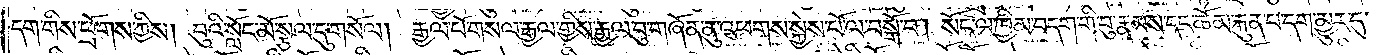དག་གིས་ཕྲོགས་ཀྱིས། བུའི་སློང་མོ་སྩལ་དུ་གསོལ། རྒྱལ་པོ་གསལ་རྒྱལ་གྱིས་རྒྱལ་བུ་གཞོན་ནུ་འཕགས་སྐྱེས་པོ་ལ་བསྒོ་བ། སོང་ལ་ཁྱིམ་བདག་གི་བུ་རྣམས་དང་ཆོམ་རྐུན་པ་དག་མྱུར་དུ་
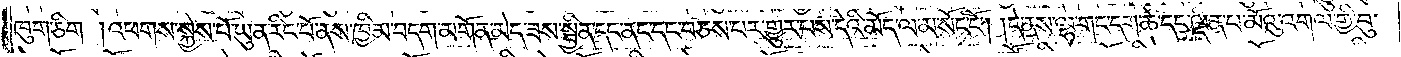ཁུག་ཅིག །འཕགས་སྐྱེས་པོ་ཡུན་རིང་པོ་ནས་ཁྱིམ་བདག་མགོན་མེད་ཟས་སྦྱིན་དང་ནང་དང་བཅས་པར་གྱུར་པས་དེའི་མོད་ལ་མ་སོང་ངོ༌། །དེ་ནས་ལྷ་གང་དག་ཚེ་དང་ལྡན་པ་མོའུ་འགལ་གྱི་བུ་
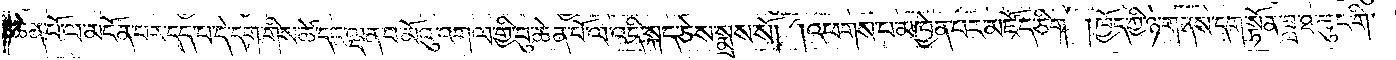ཆེན་པོ་ལ་མངོན་པར་དད་པ་དེ་དག་གིས་ཚེ་དང་ལྡན་པ་མོའུ་འགལ་གྱི་བུ་ཆེན་པོ་ལ་འདི་སྐད་ཅེས་སྨྲས་སོ། །འཕགས་པ་མཁྱེན་པར་མཛོད་ཅིག །ཁྱོད་ཀྱི་ཉེ་གནས་དག་སྟོན་ཟླ་ཐ་ཆུང་གི་
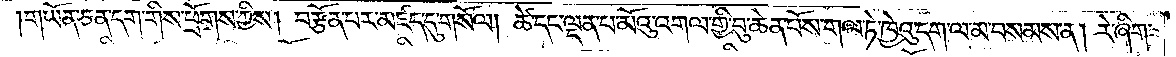གཡོན་ཅན་དག་གིས་ཕྲོགས་ཀྱིས། བརྩོན་པར་མཛད་དུ་གསོལ། ཚེ་དང་ལྡན་པ་མོའུ་འགལ་གྱི་བུ་ཆེན་པོས་གལ་ཏེ་ཁྱེའུ་དག་ལ་མ་བསམས་ན། རེ་ཞིག་
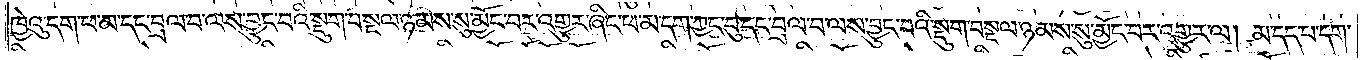ཁྱེའུ་དག་ཕ་མ་དང་བྲལ་བ་ལས་བྱུང་བའི་སྡུག་བསྔལ་ཉམས་སུ་མྱོང་བར་འགྱུར་ཞིང་ཕ་མ་དག་ཀྱང་བུ་དང་བྲལ་བ་ལས་བྱུང་བའི་སྡུག་བསྔལ་ཉམས་སུ་མྱོང་བར་འགྱུར་ལ། མ་དད་པ་དག་
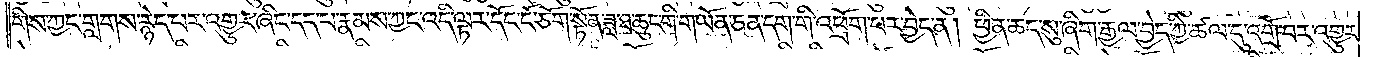གིས་ཀྱང་གླགས་རྙེད་པར་འགྱུར་ཞིང་དད་པ་རྣམས་ཀྱང་འདི་ལྟར་དོང་ངོ་ཅོག་སྟོན་ཟླ་ཐ་ཆུང་གི་གཡོན་ཅན་དག་གི་འཕྲོག་པར་བྱེད་ན། ཕྱིན་ཆད་སུ་ཞིག་རྒྱལ་བྱེད་ཀྱི་ཚལ་དུ་འགྲོ་བར་འགྱུར་
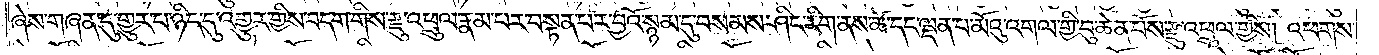ཞེས་གཞན་དུ་གྱུར་པ་ཉིད་དུ་འགྱུར་གྱིས་བདག་གིས་རྫུ་འཕྲུལ་རྣམ་པར་བསྟན་པར་བྱའོ་སྙམ་དུ་བསམས་ཤིང་རིག་ནས་ཚེ་དང་ལྡན་པ་མོའུ་འགལ་གྱི་བུ་ཆེན་པོས་རྫུ་འཕྲུལ་གྱིས། འཕགས་
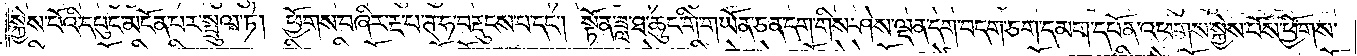སྐྱེས་པོའི་དཔུང་མངོན་པར་སྤྲུལ་ཏེ། ཕྱོགས་བཞིར་རྔ་པ་ཊ་ཧ་བརྡུངས་པ་དང༌། སྟོན་ཟླ་ཐ་ཆུང་གི་གཡོན་ཅན་དག་གིས་ཤེས་ལྡན་དག་བདག་ཅག་དམག་དཔོན་འཕགས་སྐྱེས་པོས་ཕྱོགས་
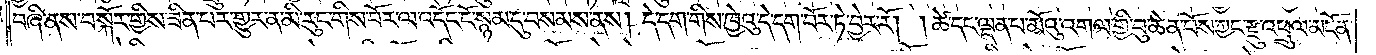བཞི་ནས་བསྐོར་གྱིས་ཟིན་པར་གྱུར་ན་མི་རུང་གིས་བོར་ལ་འདོང་ངོ་སྙམ་དུ་བསམས་ནས། དེ་དག་གིས་ཁྱེའུ་དེ་དག་བོར་ཏེ་བྱེར་རོ། །ཚེ་དང་ལྡན་པ་མོའུ་འགལ་གྱི་བུ་ཆེན་པོས་ཀྱང་རྫུ་འཕྲུལ་མངོན་
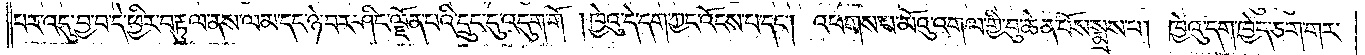པར་འདུ་བྱ་བ་དེ་ཕྱིར་བརྟུལ་ནས་ལམ་དང་ཉེ་བར་ཤིང་ལྗོན་པའི་དྲུང་དུ་འདུག་གོ །ཁྱེའུ་དེ་དག་ཀྱང་འོངས་པ་དང༌། འཕགས་པ་མོའུ་འགལ་གྱི་བུ་ཆེན་པོས་སྨྲས་པ། ཁྱེའུ་དག་ཁྱེད་ཅག་གར་
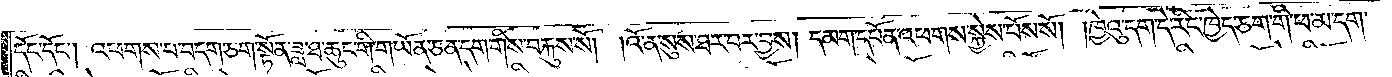དོང་དོང༌། འཕགས་པ་བདག་ཅག་སྟོན་ཟླ་ཐ་ཆུང་གི་གཡོན་ཅན་དག་གིས་བརྐུས་སོ། །འོ་ན་སུས་ཐར་བར་བྱས། དམག་དཔོན་འཕགས་སྐྱེས་པོས་སོ། །ཁྱེའུ་དག་དེ་རིང་ཁྱེད་ཅག་གི་ཕ་མ་དག་
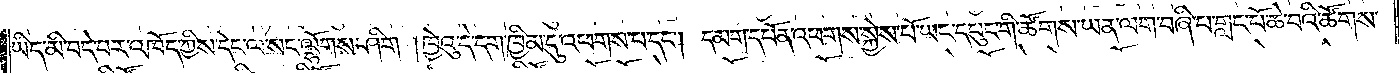ཡིད་མི་བདེ་བར་འཁོད་ཀྱིས་དེང་ལ་སང་ལྷོགས་ཤིག །ཁྱེའུ་དེ་དག་ཁྱིམ་དུ་འཕགས་པ་དང༌། དམག་དཔོན་འཕགས་སྐྱེས་པོ་ཡང་དཔུང་གི་ཚོགས་ཡན་ལག་བཞི་པ་གླང་པོ་ཆེ་བའི་ཚོགས་
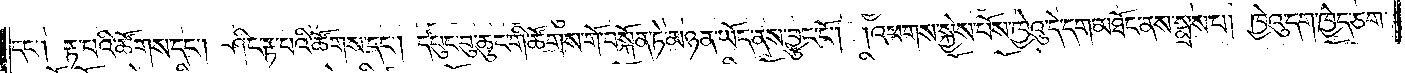དང༌། རྟ་པའི་ཚོགས་དང༌། ཤིང་རྟ་པའི་ཚོགས་དང༌། དཔུང་བུ་ཆུང་གི་ཚོགས་གོ་བསྐོན་ཏེ་མཉན་ཡོད་ནས་བྱུང་ངོ༌། །འཕགས་སྐྱེས་པོས་ཁྱེའུ་དེ་དག་མཐོང་ནས་སྨྲས་པ། ཁྱེའུ་དག་ཁྱེད་ཅག་
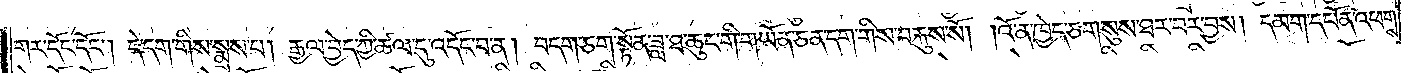གར་དོང་དོང༌། དེ་དག་གིས་སྨྲས་པ། རྒྱལ་བྱེད་ཀྱི་ཚལ་དུ་འདོང་བ་ན། བདག་ཅག་སྟོན་ཟླ་ཐ་ཆུང་གི་གཡོན་ཅན་དག་གིས་བརྐུས་སོ། །འོ་ན་ཁྱེད་ཅག་སུས་ཐར་བར་བྱས། དམག་དཔོན་འཕགས་
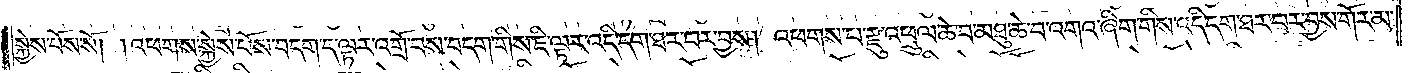སྐྱེས་པོས་སོ། །འཕགས་སྐྱེས་པོས་བདག་ད་ལྟར་འགྲོ་བས་བདག་གིས་ཇི་ལྟར་འདི་དག་ཐར་བར་བྱས། འཕགས་པ་རྫུ་འཕྲུལ་ཆེ་བ་མཐུ་ཆེ་བ་འགའ་ཞིག་གིས་འདི་དག་ཐར་བར་བྱས་གོར་མ་
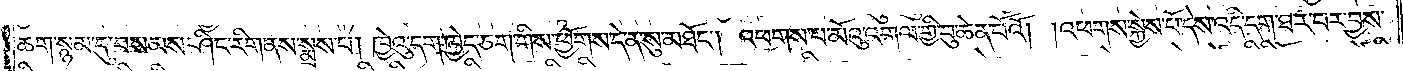ཆག་སྙམ་དུ་བསམས་ཤིང་རིག་ནས་སྨྲས་པ། ཁྱེའུ་ངག་ཁྱེད་ཅག་གིས་ཕྱོགས་དེ་ན་སུ་མཐོང༌། འཕགས་པ་མོའུ་འགལ་གྱི་བུ་ཆེན་པོའོ། །འཕགས་སྐྱེས་པོ་དེས་འདི་དག་ཐར་བར་བྱས་
